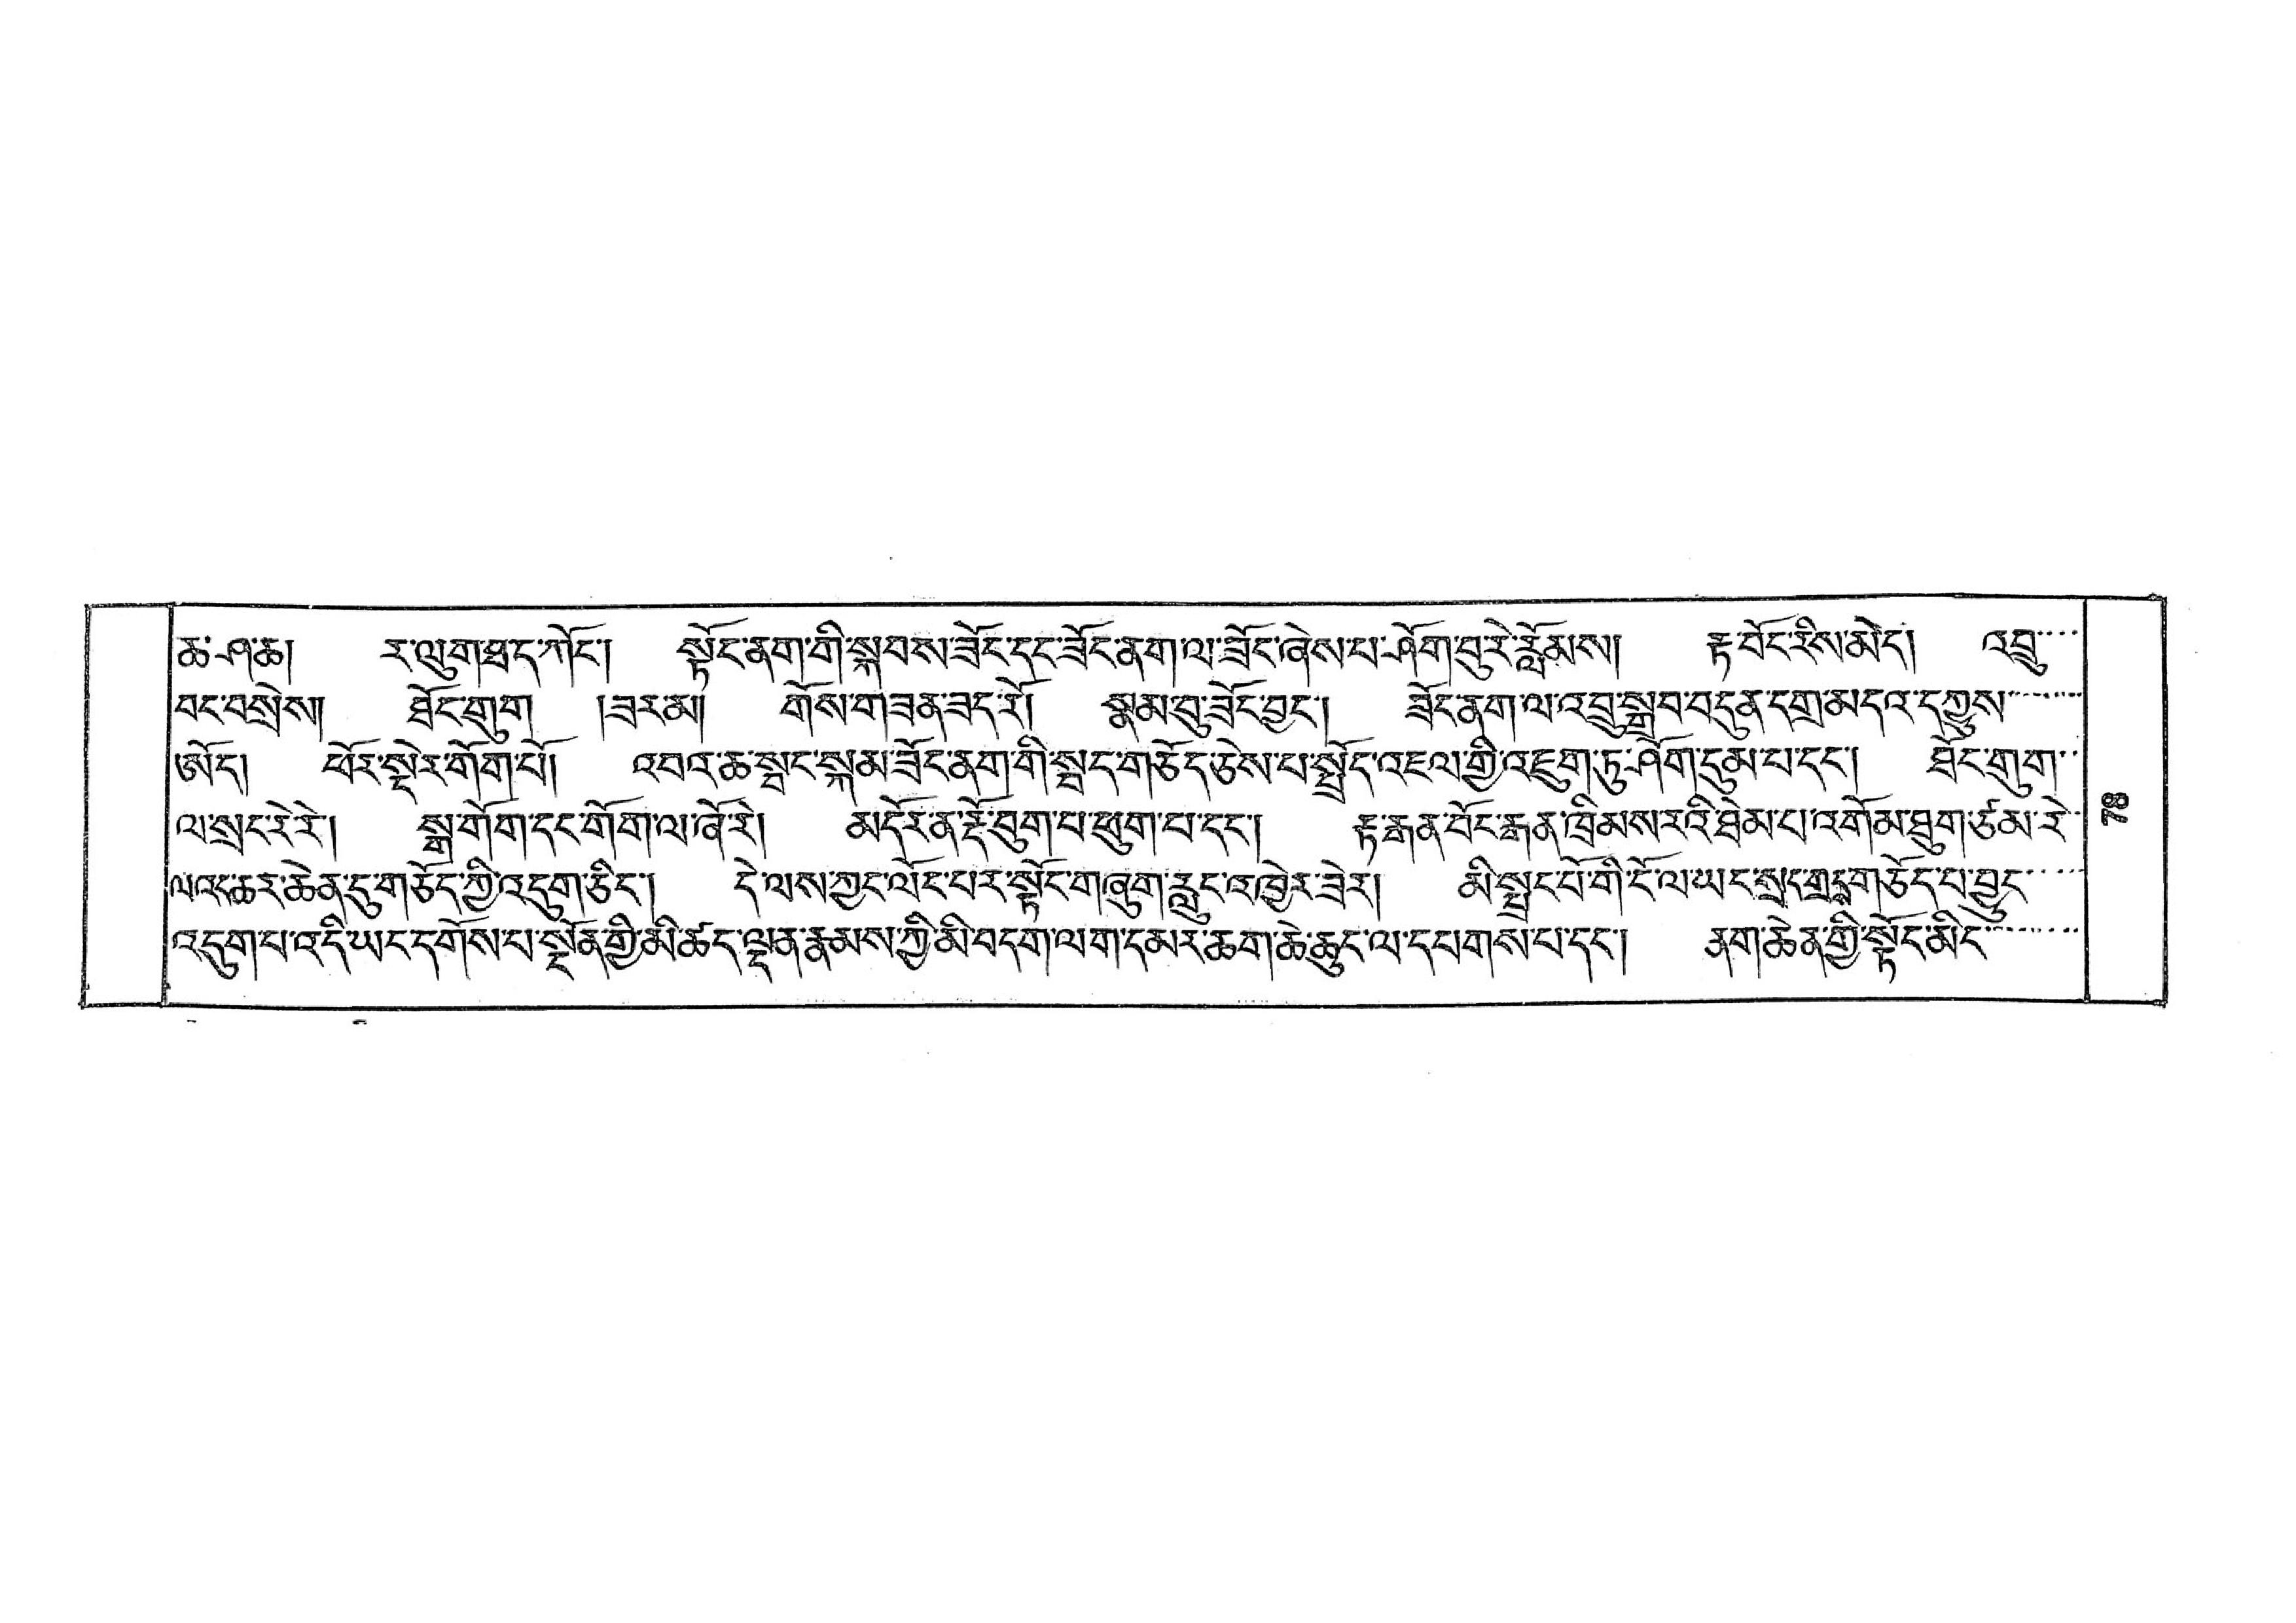ཆ་ཤ་ཆ། ར་ལུག་ཐད་ཀོང་། སྟོང་ནག་གི་སྐབས་ཟོང་དང་ཟོང་ནག་ལ་ཟོང་ཞེས་པ་ཤོག་བུ་རེ་རློམས། རྟ་བོང་རིས་མེད། འབྲུ་་་་
བང་བསྲེས། ཐོང་གུག །ཟར་མ། གོས་གཟན་ཟད་རོ། སྣམ་བུ་ཟོང་བྱང་། ཟོང་ནག་ལ་འབྲུ་སྒྲུབ་བདུན་དགྲ་མདའ་དཀྱུས་་་་་་་
ཨོད། ཕོར་སྡེར་གོག་པོ། འབའ་ཆ་སྦང་སྐམ་ཟོང་ནག་གི་སྦད་གཅོད་ཅེས་པ་སྤྲོད་འཇལ་གྱི་འཇུག་ཏུ་ཤོག་དུམ་པ་དང་། ཐོང་གུག་་
ལ་སྲང་རེ་རེ། སྒ་གོག་དང་གོག་ལ་ཞོ་རེ། མདོར་ན་རྡོ་བུག་པ་ཕུག་པ་དང་། རྟ་རྒན་བོང་རྒན་ཁྲིམས་རའི་ཐེམ་པ་འགོམ་ཐུག་ཙམ་རེ་་
ལའང་ཆར་ཆེན་དུ་གཅོད་ཀྱི་འདུག་ཅིང་། དེ་ལས་ཀྱང་ལོང་པར་སྟོང་གཞུག་རླུང་འཁྱེར་ཟེར། མི་སྤྲང་པོ་གི་ངོ་ལ་ཡང་སྲང་གྲངས་གཅོད་པ་བྱུང་་་་
འདུག་པ་འདི་ཡང་དགོས་པ་སྔོན་གྱི་མི་ཚད་ལྡན་རྣམས་ཀྱི་མི་བདག་ལག་དམར་ཆག་ཆེ་ཆུང་ལ་དཔགས་པ་དང་། ནག་ཆེན་གྱི་སྟོང་མིད་་་་་་་་
